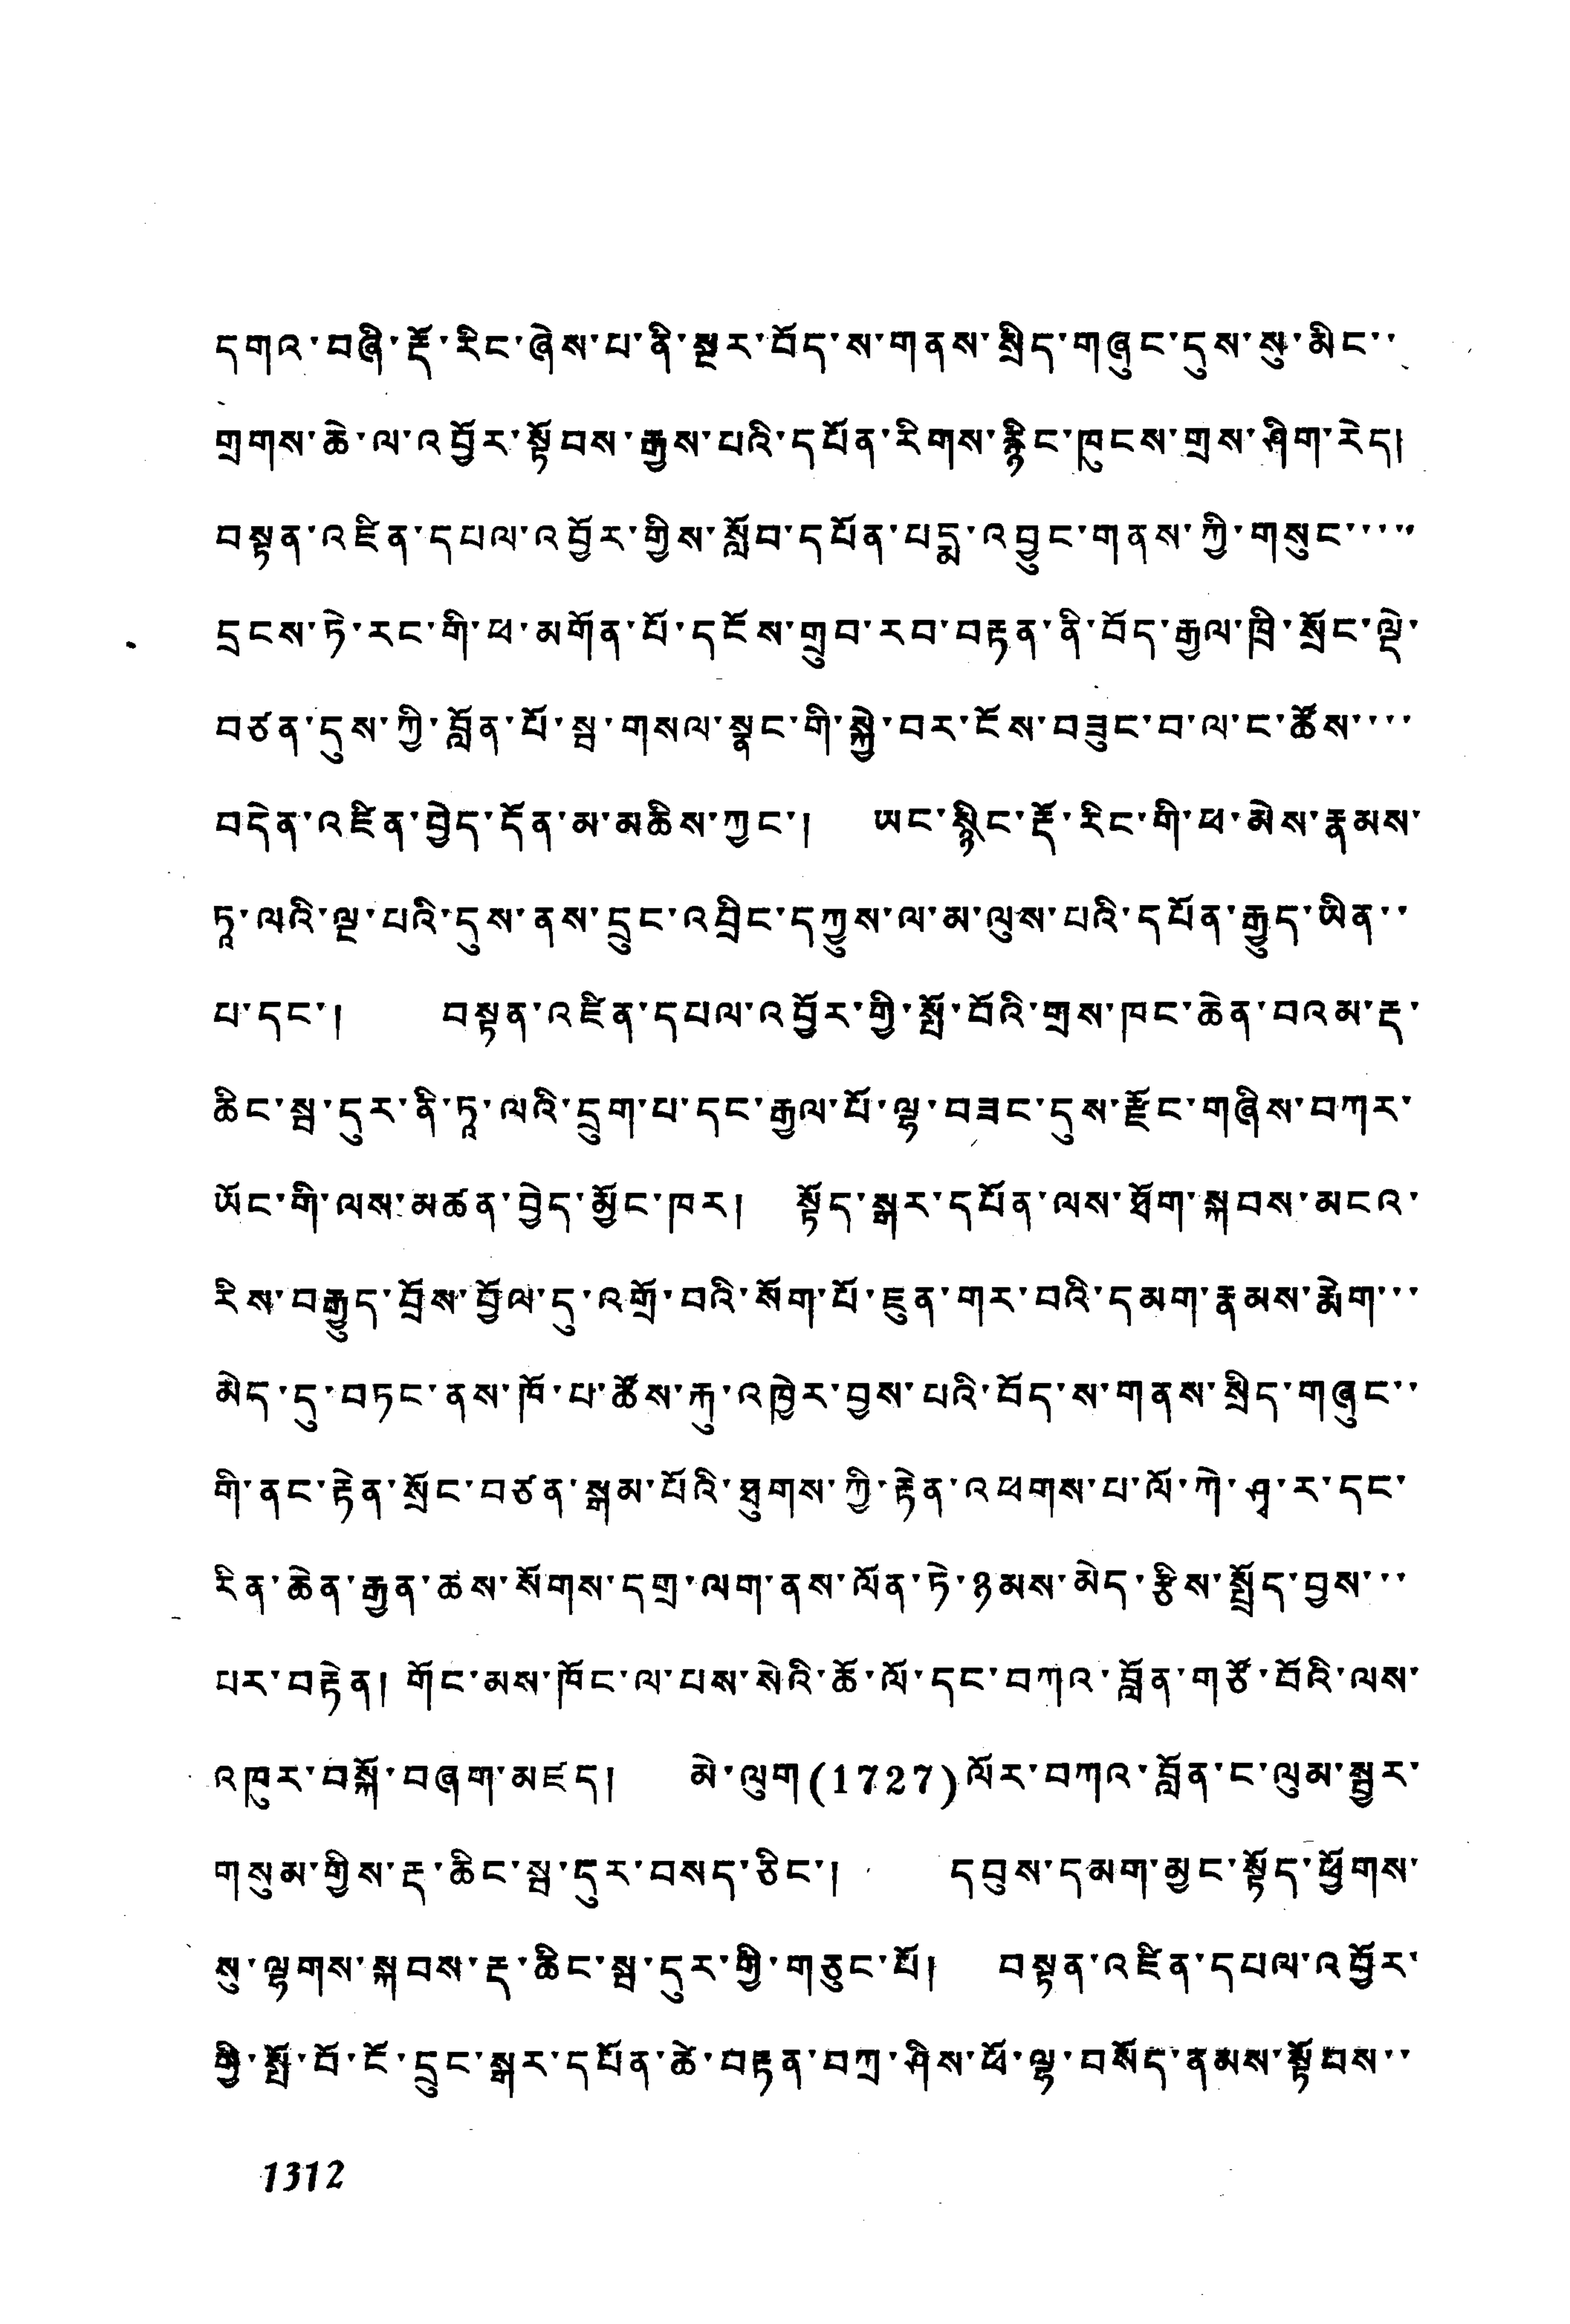དགའ་བཞི་རྡོ་རིང་ཞེས་པ་ནི་སྔར་བོད་ས་གནས་སྲིད་གཞུང་དུས་སུ་མིང་་
གྲགས་ཆེ་ལ་འབྱོར་སྟོབས་རྒྱས་པའི་དཔོན་རིགས་རྙིང་ཁུངས་གྲས་ཤིག་རེད།
བསྟན་འཛིན་དཔལ་འབྱོར་གྱིས་སློབ་དཔོན་པདྨ་འབྱུང་གནས་ཀྱི་གསུང་་་་་
དྲངས་ཏེ་རང་གི་ཕ་མགོན་པོ་དངོས་གྲུབ་རབ་བརྟན་ནི་བོད་རྒྱལ་ཁྲི་སྲོང་ལྡེ་
བཙན་དུས་ཀྱི་བློན་པོ་སྦ་གསལ་སྣང་གི་སྐྱེ་བར་ངོས་བཟུང་བ་ལ་ང་ཚོས་་་་
བདེན་འཛིན་བྱེད་དོན་མ་མཆིས་ཀྱང་། ཡང་སྙིང་རྡོ་རིང་གི་ཕ་མེས་རྣམས་
ཏཱ་ལའི་ལྔ་པའི་དུས་ནས་དྲུང་འབྲིང་དཀྱུས་ལ་མ་ལུས་པའི་དཔོན་རྒྱུད་ཡིན་་
པ་དང་། བསྟན་འཛིན་དཔལ་འབྱོར་གྱི་སྤྲོ་བོའི་གྲས་ཁང་ཆེན་བའམ་རྡ་
ཆིང་སྦ་དུར་ནི་ཏཱ་ལའི་དྲུག་པ་དང་རྒྱལ་པོ་ལྷ་བཟང་དུས་རྫོང་གཞིས་བཀར་
ཡོང་གི་ལས་མཚན་བྱེད་མྱོང་ཁར། སྟོད་སྒར་དཔོན་ལས་ཐོག་སྐབས་མངའ་
རིས་བརྒྱུད་བྲོས་བྲོལ་དུ་འགྲོ་བའི་སོག་པོ་ཇུན་གར་བའི་དམག་རྣམས་རྨེག་་་
མེད་དུ་བཏང་ནས་ཁོ་པ་ཚོས་རྒུ་འཁྱེར་བྱས་པའི་བོད་ས་གནས་སྲིད་གཞུང་
གི་ནང་རྟེན་སྲོང་བཙན་སྒམ་པོའི་ཐུགས་ཀྱི་རྟེན་འཕགས་པ་ལོ་ཀེ་ཤྭ་ར་དང་
རིན་ཆེན་རྒྱན་ཆས་སོགས་དགྲ་ལག་ནས་ལོན་ཏེ་ཉམས་མེད་རྩིས་སྤྲོད་བྱས་་་
པར་བརྟེན། གོང་མས་ཁོང་ལ་པས་སེའི་ཆོ་ལོ་དང་བཀའ་བློན་གཙོ་བོའི་ལས་
འཁུར་བསྐོ་བཞག་མཛད། མེ་ལུག (1727) ལོར་བཀའ་བློན་ང་ལུམ་སྦྱར་
གསུམ་གྱིས་རྡ་ཆིང་སྦ་དུར་བསད་ཅིང་། དབུས་དམག་མྱང་སྟོད་ཕྱོགས་
སུ་ལྷགས་སྐབས་རྡ་ཆིང་སྦ་དུར་གྱི་གཅུང་པོ། བསྟན་འཛིན་དཔལ་འབྱོར་
གྱི་སྤོ་བོ་ངོ་དྲུང་སྒར་དཔོན་ཚེ་བརྟན་བཀྲ་ཤིས་ཕོ་ལྷ་བསོད་ནམས་སྟོབས་་
1312
